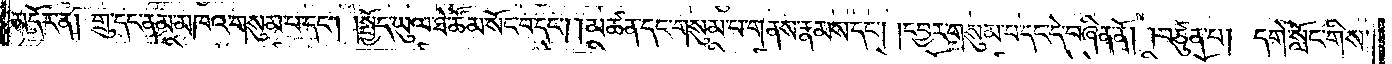༎མདོར་ན། གྲུ་དང་ནམ་མཁའ་གསུམ་པ་དང༌། །སྤྱོད་ཡུལ་ཐེ་ཚོམ་སོང་བ་དང༌། །མཚན་དང་གསུམ་པ་གནས་རྣམས་དང༌། །དབྱར་གསུམ་པ་དང་དེ་བཞིན་ནོ། །བཙུན་པ། དགེ་སློང་གིས་
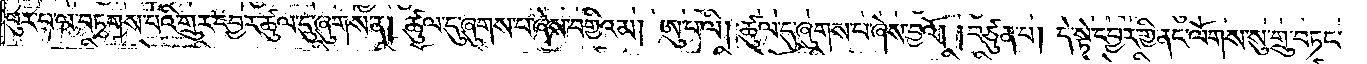ཕུར་པ་ལ་བཏགས་པའི་གྲུར་དབྱར་ཚུལ་དུ་ཞུགས་ན། ཚུལ་དུ་ཞུགས་པ་ཞེས་བགྱིའམ། ཨུ་པ་ལི། ཚུལ་དུ་ཞུགས་པ་ཞེས་བྱའོ། །བཙུན་པ། དེ་སྟེ་དབྱར་གྱི་ནང་ལོགས་སུ་གྲུ་བཏང་
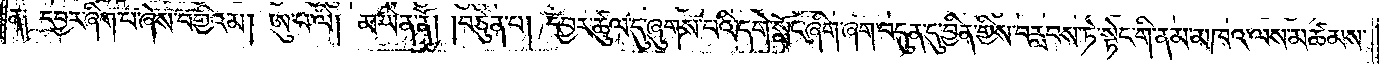ན༑ དབྱར་ཞིག་པ་ཞེས་བགྱིའམ། ཨུ་པ་ལི། མ་ཡིན་ནོ། །བཙུན་པ། དབྱར་ཚུལ་དུ་ཞུགས་པའི་དགེ་སློང་ཞིག་ཞག་བདུན་དུ་བྱིན་གྱིས་བརླབས་ཏེ་སྟེང་གི་ནམ་མཁའ་ལས་མཚམས་
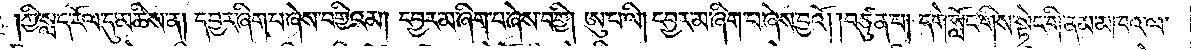།ཀྱི་སླད་རོལ་དུ་མཆིས་ན། དབྱར་ཞིག་པ་ཞེས་བགྱིའམ། དབྱར་མ་ཞིག་པ་ཞེས་བགྱི། ཨུ་པ་ལི། དབྱར་མ་ཞིག་པ་ཞེས་བྱའོ། །བཙུན་པ། དགེ་སློང་གིས་སྟེང་གི་ནམ་མཁའ་ལ་
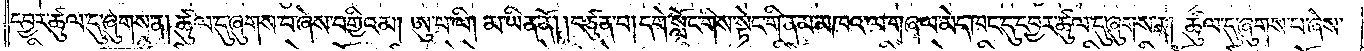དབྱར་ཚུལ་དུ་ཞུགས་ན། ཚུལ་དུ་ཞུགས་པ་ཞེས་བགྱིའམ། ཨུ་པ་ལི། མ་ཡིན་ནོ། །བཙུན་པ། དགེ་སློང་གིས་སྟེང་གི་ནམ་མཁའ་ལ་གཞལ་མེད་ཁང་དུ་དབྱར་ཚུལ་དུ་ཞུགས་ན། ཚུལ་དུ་ཞུགས་པ་ཞེས་
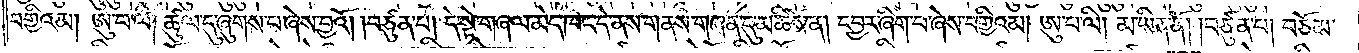བགྱིའམ། ཨུ་པ་ལི། ཚུལ་དུ་ཞུགས་པ་ཞེས་བྱའོ། །བཙུན་པ། དེ་སྟེ་གཞལ་མེད་ཁང་དེ་ནས་གནས་གཞན་དུ་མཆིས་ན། དབྱར་ཞིག་པ་ཞེས་བགྱིའམ། ཨུ་པ་ལི། མ་ཡིན་ནོ། །བཙུན་པ། བཅོམ་
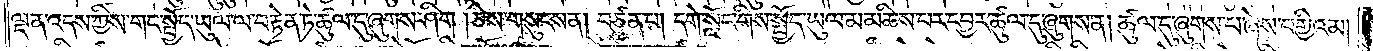ལྡན་འདས་ཀྱིས་གང་སྤྱོད་ཡུལ་ལ་བརྟེན་ཏེ་ཚུལ་དུ་ཞུགས་ཤིག །ཅེས་གསུངས་ན། བཙུན་པ། དགེ་སློང་གིས་སྤྱོད་ཡུལ་མ་མཆིས་པར་དབྱར་ཚུལ་དུ་ཞུགས་ན། ཚུལ་དུ་ཞུགས་པ་ཞེས་བགྱིའམ།
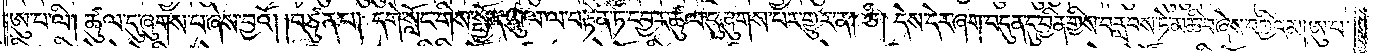ཨུ་པ་ལི། ཚུལ་དུ་ཞུགས་པ་ཞེས་བྱའོ། །བཙུན་པ། དགེ་སློང་གིས་སྤྱོད་ཡུལ་ལ་བརྟེན་ཏེ་དབྱར་ཚུལ་དུ་ཞུགས་པར་གྱུར་ན། ཅི། དེས་དེར་ཞག་བདུན་དུ་བྱིན་གྱིས་བརླབས་ཏེ་མཆི་བ་ཞེས་བགྱིའམ། ཨུ་པ་
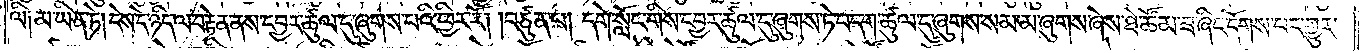ལི༑ མ་ཡིན་ཏེ། དེས་དེ་ཉིད་ལ་བརྟེན་ནས་དབྱར་ཚུལ་དུ་ཞུགས་པའི་ཕྱིར་རོ། །བཙུན་པ། དགེ་སློང་གིས་དབྱར་ཚུལ་དུ་ཞུགས་ཏེ་བདག་ཚུལ་དུ་ཞུགས་སམ་མ་ཞུགས་ཞེས་ཐེ་ཚོམ་ཟ་ཞིང་དོགས་པར་གྱུར་
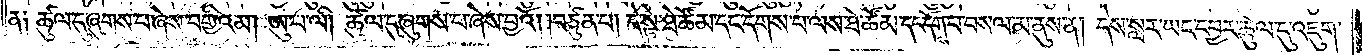ན༑ ཚུལ་དུ་ཞུགས་པ་ཞེས་བགྱིའམ། ཨུ་པ་ལི། ཚུལ་དུ་ཞུགས་པ་ཞེས་བྱའོ། །བཙུན་པ། དེ་སྟེ་ཐེ་ཚོམ་དང་དོགས་པ་ལས་ཐེ་ཚོམ་དང་དོགས་པ་བསལ་མ་ནུས་ན། དེས་སླར་ཡང་དབྱར་ཚུལ་དུ་འཇུག་
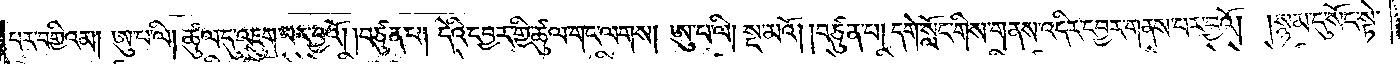པར་བགྱིའམ། ཨུ་པ་ལི། ཚུལ་དུ་འཇུག་པར་བྱའོ། །བཙུན་པ། དེའི་དབྱར་གྱི་ཚུལ་གང་ལགས། ཨུ་པ་ལི། སྔ་མའོ། །བཙུན་པ། དགེ་སློང་གིས་གནས་འདིར་དབྱར་གནས་པར་བྱའོ། །སྙམ་དུ་སོང་སྟེ་
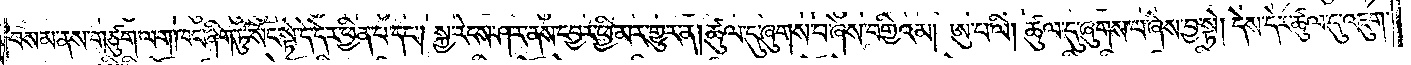བསམ་ནས་གཙུག་ལག་ཁང་ཞིག་ཏུ་སོང་སྟེ་དེ་དེར་ཕྱིན་པ་དང༌། སྐྱ་རེངས་ཤར་ནས་དབྱར་ཕྱི་མར་གྱུར་ན། ཚུལ་དུ་ཞུགས་བ་ཞེས་བགྱིའམ། ཨུ་པ་ལི། ཚུལ་དུ་ཞུགས་པ་ཞེས་བྱ་སྟེ། དེས་དེར་ཚུལ་དུ་འཇུག་
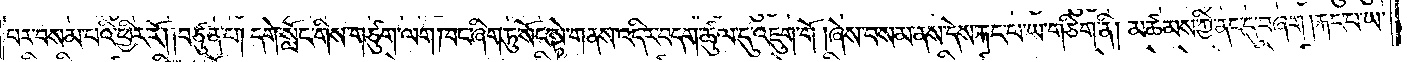པར་བསམ་པའི་ཕྱིར་རོ། །བཙུན་པ། དགེ་སློང་གིས་གཙུག་ལག་ཁང་ཞིག་ཏུ་སོང་སྟེ་གནས་འདིར་བདག་ཚུལ་དུ་འཇུག་གོ །ཞེས་བསམ་ནས་དེས་རྐང་པ་ཡ་གཅིག་ནི། མཚམས་ཀྱི་ནང་དུ་བཞག །རྐང་པ་ཡ་
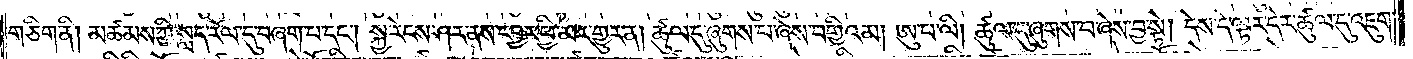གཅིག་ནི། མཚམས་ཀྱི་སླད་རོལ་དུ་བཞག་པ་དང༌། སྐྱ་རེངས་ཤར་ནས་དབྱར་ཕྱི་མར་གྱུར་ན། ཚུལ་དུ་ཞུགས་པ་ཞེས་བགྱིའམ། ཨུ་པ་ལི། ཚུལ་དུ་ཞུགས་པ་ཞེས་བྱ་སྟེ། དེས་དེ་ལྟར་དེར་ཚུལ་དུ་འཇུག་
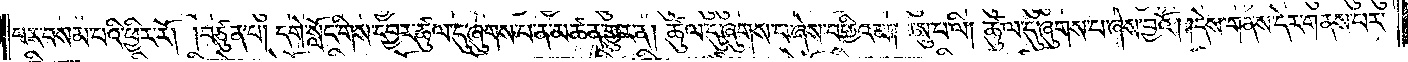པར་བསམ་པའི་ཕྱིར་རོ། །བཙུན་པ། དགེ་སློང་གིས་དབྱར་ཚུལ་དུ་ཞུགས་པ་ན་མཚན་གྱུར་ན། ཚུལ་དུ་ཞུགས་པ་ཞེས་བགྱིའམ། ཨུ་པ་ལི། ཚུལ་དུ་ཞུགས་པ་ཞེས་བྱའོ། །དེས་གནས་དེར་གནས་པར་
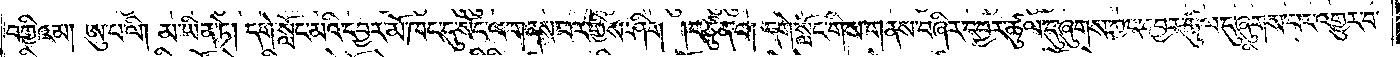བགྱིའམ། ཨུ་པ་ལི། མ་ཡིན་ཏེ། དགེ་སློང་མའི་དབྱར་མོ་ཁང་དུ་སོང་ལ་གནས་པར་གྱིས་ཤིག །བཙུན་པ། དགེ་སློང་གིས་གནས་བཞིར་དབྱར་ཚུལ་དུ་ཞུགས་ཀྱང་དབྱར་ཚུལ་དུ་ཞུགས་པར་འགྱུར་བ་
